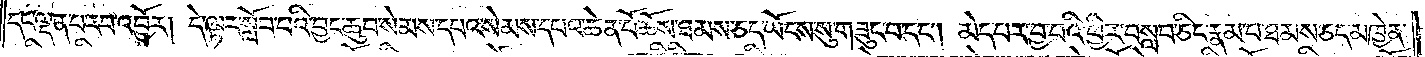དང་ལྡན་པ་རབ་འབྱོར། དེ་ལྟར་སློབ་པའི་བྱང་ཆུབ་སེམས་དཔའ་སེམས་དཔའ་ཆེན་པོ་ཆོས་ཐམས་ཅད་ཡོངས་སུ་གཟུང་བ་དང༌། མེད་པར་བྱ་བའི་ཕྱིར་བསླབ་ཅིང་རྣམ་པ་ཐམས་ཅད་མཁྱེན་
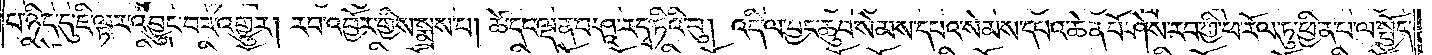པ་ཉིད་དུ་ཇི་ལྟར་འབྱུང་བར་འགྱུར། རབ་འབྱོར་གྱིས་སྨྲས་པ། ཚེ་དང་ལྡན་པ་ཤཱ་ར་དྭ་ཏིའི་བུ། འདི་ལ་བྱང་ཆུབ་སེམས་དཔའ་སེམས་དཔའ་ཆེན་པོ་ཤེས་རབ་ཀྱི་ཕ་རོལ་ཏུ་ཕྱིན་པ་ལ་སྤྱོད་
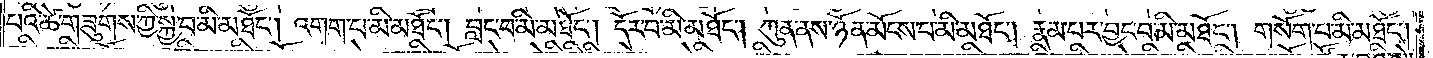པའི་ཚེ་གཟུགས་ཀྱི་སྐྱེ་བ་མི་མཐོང༌། འགག་པ་མི་མཐོང༌། བླང་བ་མི་མཐོང༌། དོར་བ་མི་མཐོང༌། ཀུན་ནས་ཉོན་མོངས་པ་མི་མཐོང༌། རྣམ་པར་བྱང་བ་མི་མཐོང༌། གསོག་པ་མི་མཐོང༌།
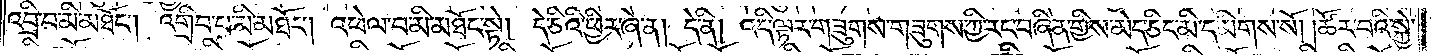འབྲི་བ་མི་མཐོང༌། འགྲིབ་པ་མི་མཐོང༌། འཕེལ་བ་མི་མཐོང་སྟེ། དེ་ཅིའི་ཕྱིར་ཞེ་ན། དེ་ནི། འདི་ལྟར་གཟུགས་གཟུགས་ཀྱི་རང་བཞིན་གྱིས་མེད་ཅིང་མི་དམིགས་སོ། །ཚོར་བའི་སྐྱེ་
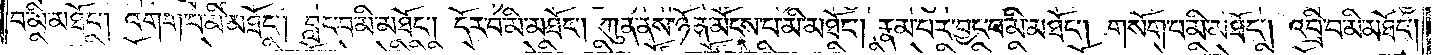བ་མི་མཐོང༌། འགག་པ་མི་མཐོང༌། བླང་བ་མི་མཐོང༌། དོར་བ་མི་མཐོང༌། ཀུན་ནས་ཉོན་མོངས་པ་མི་མཐོང༌། རྣམ་པར་བྱང་བ་མི་མཐོང༌། སོགས་པ་མི་མཐོང༌། འབྲི་བ་མི་མཐོང༌།
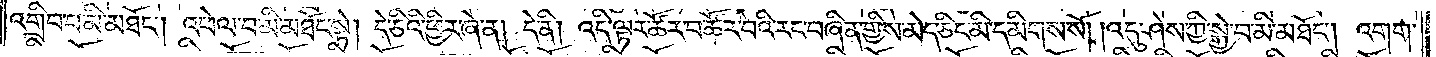འགྲིབ་པ་མི་མཐོང༌། འཕེལ་བ་མི་མཐོང་སྟེ། དེ་ཅིའི་ཕྱིར་ཞེ་ན། དེ་ནི། འདི་ལྟར་ཚོར་བ་ཚོར་བའི་རང་བཞིན་གྱིས་མེད་ཅིང་མི་དམིགས་སོ། །འདུ་ཤེས་ཀྱི་སྐྱེ་བ་མི་མཐོང༌། འགག་
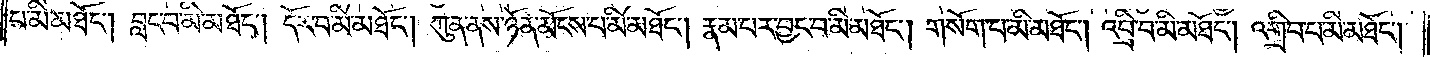པ་མི་མཐོང༌། བླང་བ་མི་མཐོང༌། དོར་བ་མི་མཐོང༌། ཀུན་ནས་ཉོན་མོངས་པ་མི་མཐོང༌། རྣམ་པར་བྱང་བ་མི་མཐོང༌། གསོག་པ་མི་མཐོང༌། འབྲི་བ་མི་མཐོང༌། འགྲིབ་པ་མི་མཐོང༌།
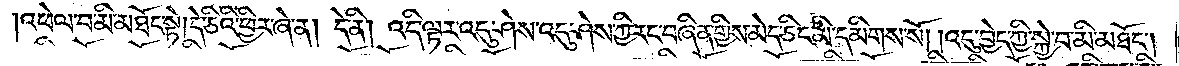འཕེལ་བ་མི་མཐོང་སྟེ། དེ་ཅིའི་ཕྱིར་ཞེ་ན། དེ་ནི། འདི་ལྟར་འདུ་ཤེས་འདུ་ཤེས་ཀྱི་རང་བཞིན་གྱིས་མེད་ཅིང་མི་དམིགས་སོ། །འདུ་བྱེད་ཀྱི་སྐྱེ་བ་མི་མཐོང༌།
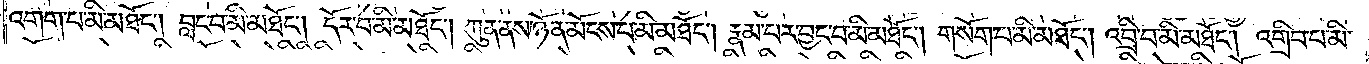འགག་པ་མི་མཐོང༌། བླང་བ་མི་མཐོང༌། དོར་བ་མི་མཐོང༌། ཀུན་ནས་ཉོན་མོངས་པ་མི་མཐོང༌། རྣམ་པར་བྱང་བ་མི་མཐོང༌། གསོག་པ་མི་མཐོང༌། འབྲི་བ་མི་མཐོང༌། འགྲིབ་པ་མི་
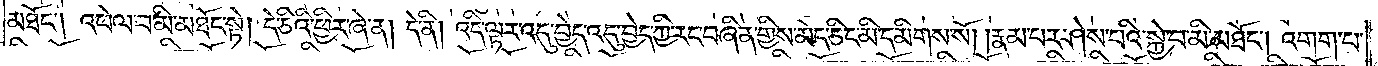མཐོང༌། འཕེལ་བ་མི་མཐོང་སྟེ། དེ་ཅིའི་ཕྱིར་ཞེ་ན། དེ་ནི། འདི་ལྟར་འདུ་བྱེད་འདུ་བྱེད་ཀྱི་རང་བཞིན་གྱིས་མེད་ཅིང་མི་དམིགས་སོ། །རྣམ་པར་ཤེས་པའི་སྐྱེ་བ་མི་མཐོང༌། འགག་པ་
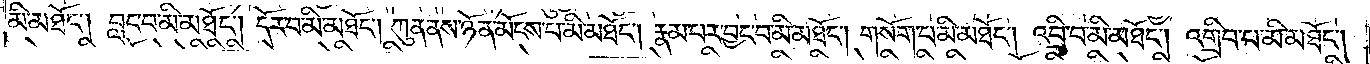མི་མཐོང༌། བླང་བ་མི་མཐོང༌། དོར་བ་མི་མཐོང༌། ཀུན་ནས་ཉོན་མོངས་པ་མི་མཐོང༌། རྣམ་པར་བྱང་བ་མི་མཐོང༌། གསོག་པ་མི་མཐོང༌། འབྲི་བ་མི་མཐོང༌། འགྲིབ་པ་མི་མཐོང༌།
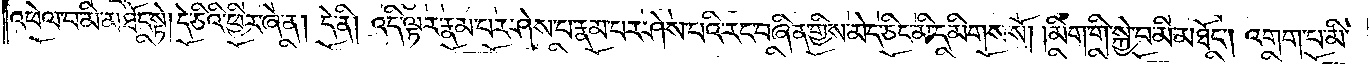འཕེལ་བ་མི་མཐོང་སྟེ། དེ་ཅིའི་ཕྱིར་ཞེ་ན། དེ་ནི། འདི་ལྟར་རྣམ་པར་ཤེས་པ་རྣམ་པར་ཤེས་པའི་རང་བཞིན་གྱིས་མེད་ཅིང་མི་དམིགས་སོ། །མིག་གི་སྐྱེ་བ་མི་མཐོང༌། འགག་པ་མི་
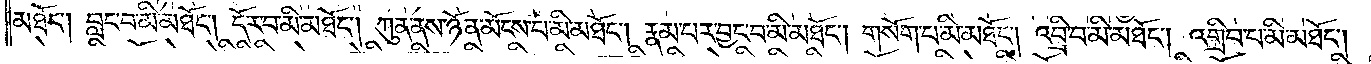མཐོང༌། བླང་བ་མི་མཐོང༌། དོར་བ་མི་མཐོང༌། ཀུན་ནས་ཉོན་མོངས་པ་མི་མཐོང༌། རྣམ་པར་བྱང་བ་མི་མཐོང༌། གསོག་པ་མི་མཐོང༌། འབྲི་བ་མི་མཐོང༌། འགྲིབ་པ་མི་མཐོང༌།
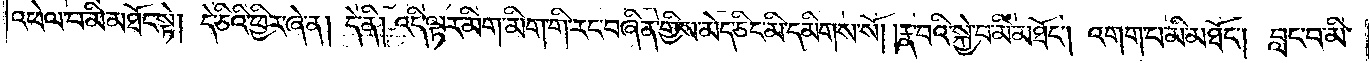འཕེལ་བ་མི་མཐོང་སྟེ། དེ་ཅིའི་ཕྱིར་ཞེ་ན། དེ་ནི། འདི་ལྟར་མིག་མིག་གི་རང་བཞིན་གྱིས་མེད་ཅིང་མི་དམིགས་སོ། །རྣ་བའི་སྐྱེ་བ་མི་མཐོང༌། འགག་པ་མི་མཐོང༌། བླང་བ་མི་
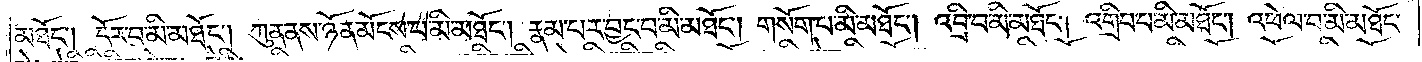མཐོང༌། དོར་བ་མི་མཐོང༌། ཀུན་ནས་ཉོན་མོངས་པ་མི་མཐོང༌། རྣམ་པར་བྱང་བ་མི་མཐོང༌། གསོག་པ་མི་མཐོང༌། འབྲི་བ་མི་མཐོང༌། འགྲིབ་པ་མི་མཐོང༌། འཕེལ་བ་མི་མཐོང་
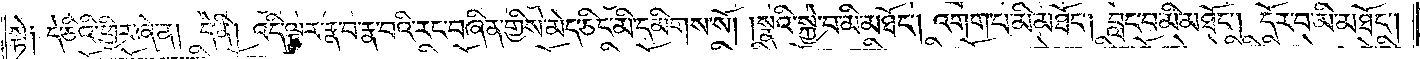སྟེ༑ དེ་ཅིའི་ཕྱིར་ཞེ་ན། དེ་ནི། འདི་ལྟར་རྣ་བ་རྣ་བའི་རང་བཞིན་གྱིས་མེད་ཅིང་མི་དམིགས་སོ། །སྣའི་སྐྱེ་བ་མི་མཐོང༌། འགག་པ་མི་མཐོང༌། བླང་བ་མི་མཐོང༌། དོར་བ་མི་མཐོང༌།
